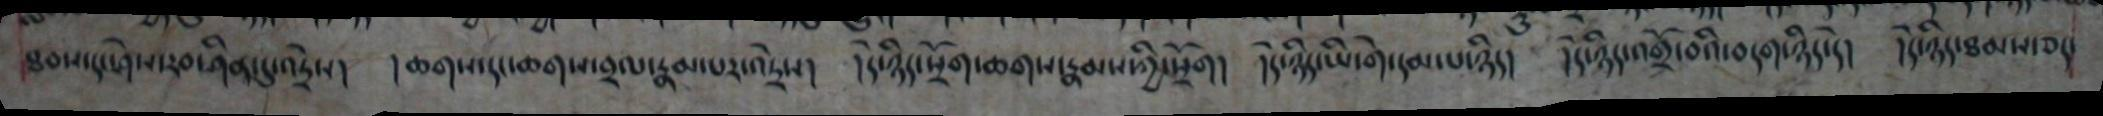ཐབས་དང་ཤེས་རབ་ཤིན་དུ་འདྲེས། །ཆགས་དང་ཆགས་བྲལ་རྣམ་པར་འདྲེས། །དེ་ཉིད་སྲོག་ཆགས་རྣམས་ཀྱི་སྲོག། །དེ་ཉིད་ཡི་གེ་དམ་པ་ཉིད། །དེ་ཉིད་འགྲོ་བའི་བདག་ཉིད་དེ། །དེ་ཉིད་ཐམས་ཅད་
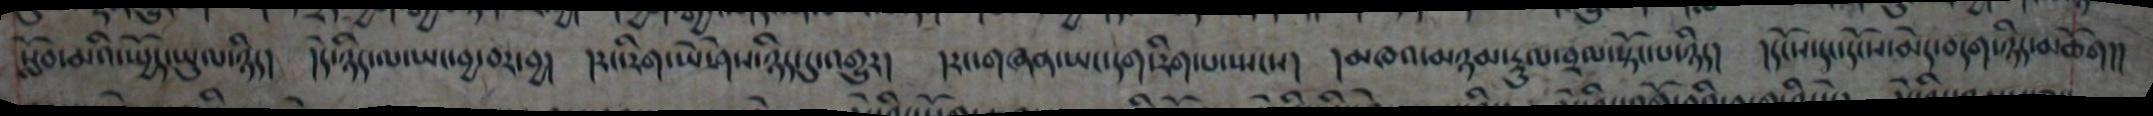སློབ་མའི་སྤྱོད་ཡུལ་ཉིད། །དེ་ཉིད་ལ་ཡང་བྱ་བར་བྱ། །རང་རིག་ཡེ་ཤེས་ཉིད་དུ་འགྱུར། །རང་གཞན་ཡང་དག་རིག་པ་སྤངས། །མཁའ་མཉམ་རྡུལ་བྲལ་སྟོང་པ་ཉིད། །དངོས་དང་དངོས་མེད་བདག་ཉིད་མཆོག།།
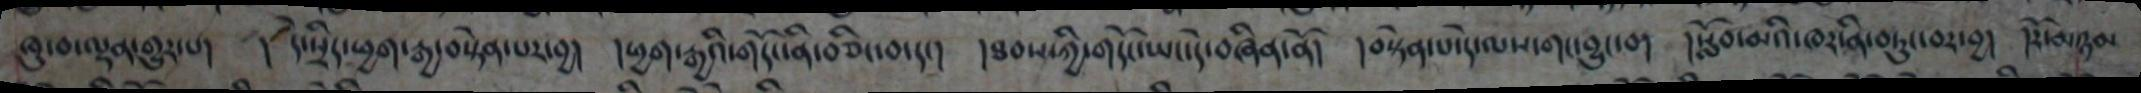ཁུ་བ་ལྡན་གྱུར་པ། །དེ་སྲིད་ཕྱག་རྒྱ་བསྟེན་པར་བྱ། །ཕྱག་རྒྱའི་གདོང་ནི་བཅིང་བ་དང། །ཐབས་ཀྱི་གདོང་ཡང་དེ་བཞིན་ནོ། །བསྟེན་པ་དེ་ལས་གང་བྱུང་བ། །སློབ་མའི་ཁར་ནི་བཏུང་བར་བྱ། །རོ་མཉམ
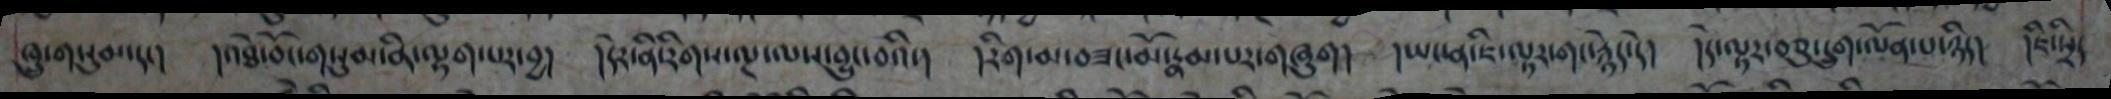ཁྲུ་གསུམ་དང། །འཐེ་བོང་གསུམ་ནི་ལྷག་པར་བྱ། །དེར་ནི་རིགས་ལྔ་ལས་བྱུང་བའི་། །རིག་མ་བཟང་མོ་རྣམ་པར་གཞུག། །ཡང་ན་ཇི་ལྟར་གང་རྙེད་དེ། །དེ་ལྟར་བཅུ་དྲུག་ལོན་པ་ཉིད། །ཇི་སྲིད
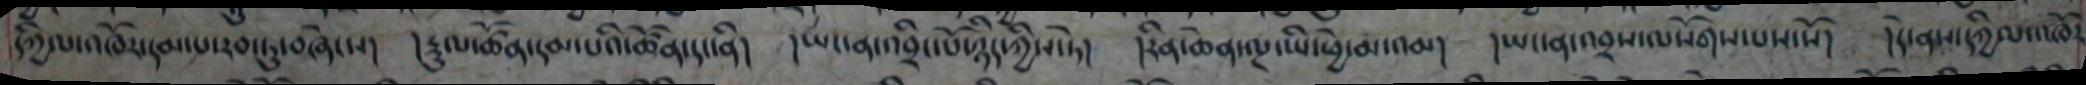དཀྱིལ་འཁོར་དམ་པ་རབ་ཏུ་བཞེངས། །རྡུལ་ཚོན་དམ་པའི་ཚོན་དང་ནི། །ཡང་ན་འབྲིང་པོ་ཉིད་ཀྱིས་ཏེ། །རིན་ཆེན་ལྔ་ཡི་ཕྱེ་མ་འམ། །ཡང་ན་འབྲས་ལསོགས་པས་སོ། །དེ་ནས་དཀྱིལ་འཁོར
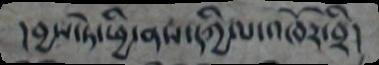།བྱས་ཏེ་ཕྱི་ནས་དཀྱིལ་འཁོར་བྲི།
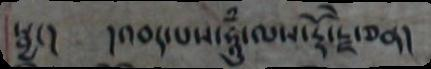སྦྱ། །འབད་པས་ཧཱུཾ་ལས་རྡོ་རྗེ་ཅན།
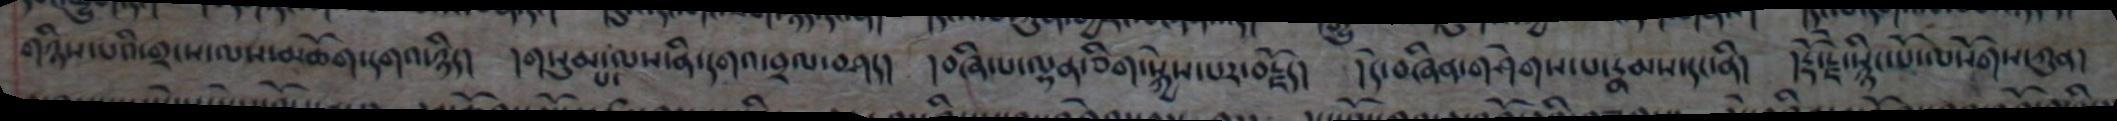གཉིས་པའི་གྲངས་ལས་མཆོག་དགའ་ཉིད།    །གསུམ་པ་ལས་ནི་དགའ་བྲལ་བཤད།   །བཞི་པ་ལྷན་ཅིག་སྐྱེས་པར་བརྗོད།    །དེ་བཞིན་གཤེགས་པ་རྣམས་དང་ནི།   ། རྡོ་རྗེ་སྙིད་པོ་ལསོགས་ཀུན་
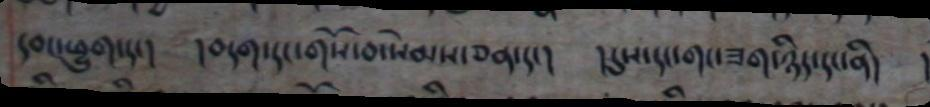དབང་ཕྱག་དང། །བདག་དང་གསོ་བ་སེམས་ཅན་དང། །དུས་དང་གང་ཟག་ཉིད་དང་ནི། །
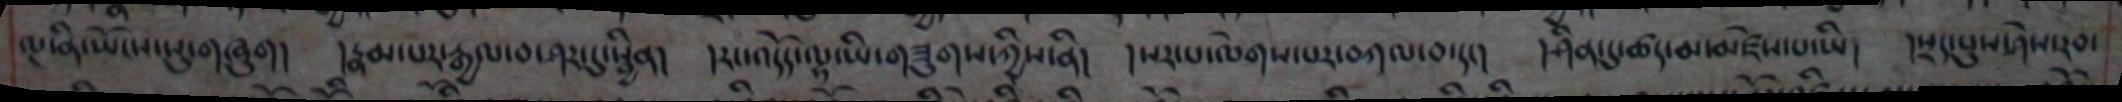ལྔ་ནི་ཡོངས་སུ་གཞུག། །རྣམ་པར་རྒྱལ་བ་ཤར་དུ་སྦྱིན། །རང་འདོད་ལྷ་ཡི་གཟུགས་ཀྱིས་ནི། །སར་པ་ལེགས་པར་བཀལ་བ་དང། །ཤིན་དུ་ཚད་མ་མཛེས་པ་ཡི། །སྲད་པུས་ཤེས་རབ་
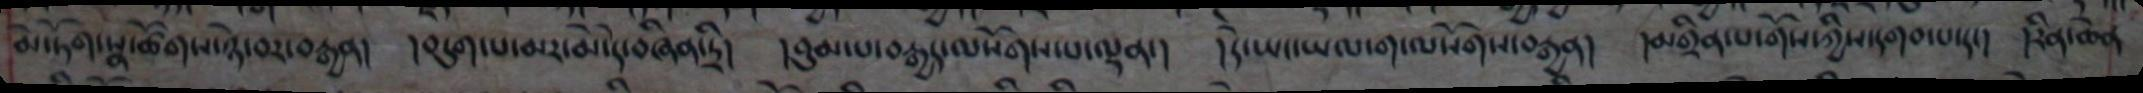མེ་ཏོག་སྣ་ཚོགས་ཉེ་བར་བརྒྱན། །བདུག་པ་མར་མེ་དེ་བཞིན་དྲི། །བུམ་པ་བརྒྱད་ལསོགས་པ་ལྡན་། །དེ་ཡང་ཡལ་ག་ལསོགས་བརྒྱན། །མགྲིན་པ་གོས་ཀྱིས་དགབ་པ་དང། །རིན་ཆེན
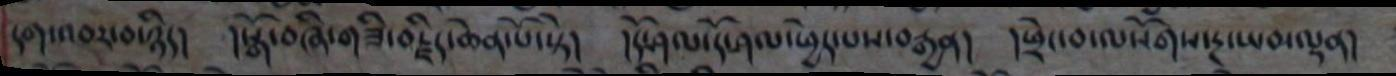དག་འབར་བ་ཉིད། །སྒོ་བཞི་གཟི་བརྗིད་ཆེན་པོ་སྟེ། །དོ་ཤལ་དོ་ཤལ་ཕྱེད་པས་བརྒྱན། །ཕྲེང་བ་ལསོགས་རྔ་ཡབ་ལྡན།
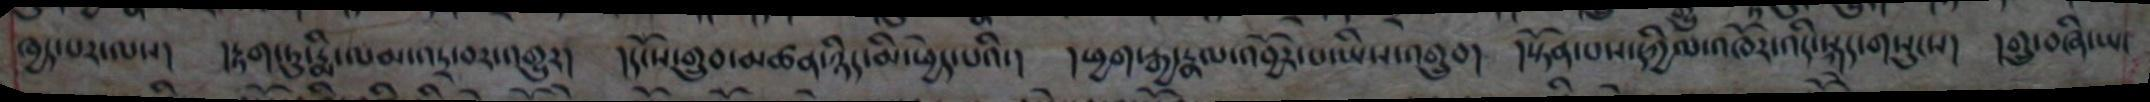ཁྱད་པར་ལས། །རྟག་ཏུ་རྨི་ལམ་འདྲ་བར་འགྱུར། །དངོས་གྲུབ་མཚན་ཉིད་མི་ཕྱེད་པའི་། །ཕྱག་རྒྱ་རྣལ་འབྱོར་པ་ཡིས་འགྲུབ། །སྟོན་པས་དཀྱིལ་འཁོར་འདི་སྐད་གསུངས། །གྲུ་བཞི་ཡང
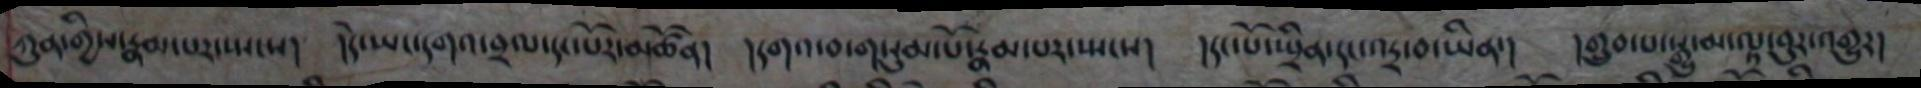ཀུན་གྱིས་རྣམ་པར་སྤངས། །དེ་ཡང་དགའ་བྲལ་དང་པོར་མཚོན། །དགའ་བ་གསུམ་པོ་རྣམ་པར་སྤངས། །དང་པོ་སྤྲིན་དང་འདྲ་བ་ཡིན། །གྲུབ་པ་སྒྱུ་མ་ལྟ་བུར་འགྱུར།
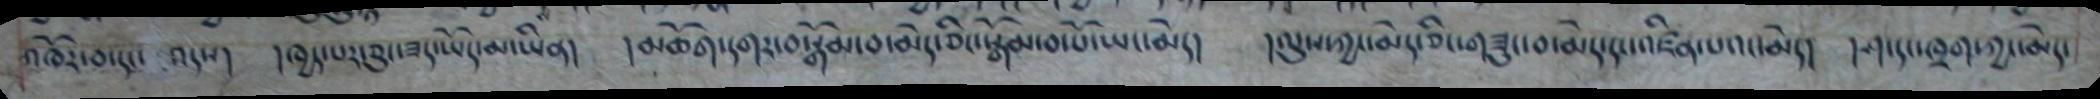།ཁོར་བ་དང་ འདས། །ཁྱད་པར་ཅུང་ཟད་ཡོད་མ་ཡིན། །མཆོག་དགར་བསྒོམ་བ་མེད་ཅིང་སྒོམ་བ་པོ་ཡང་མེད། །ལུས་ཀྱང་མེད་ཅིང་གཟུང་བ་མེད་དང་འཛིན་པའང་མེད། །ཤ་དང་ཁྲག་ཀྱང་མེད་
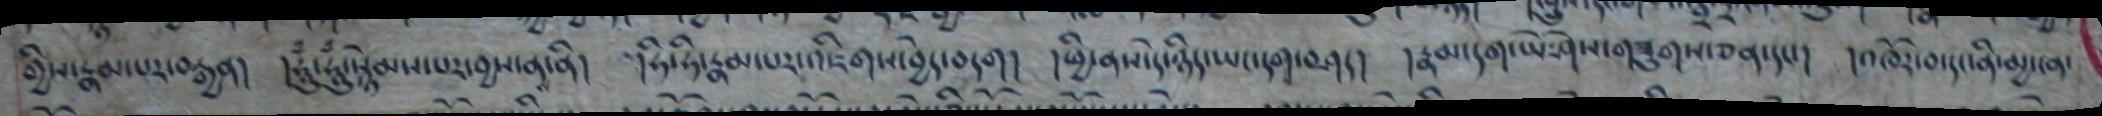གྱིས་རྣམ་པར་བརྒྱན། །ཧཱུཾ་ཧཱུཾ་སྙེམས་པར་བྱས་ན་ནི། །ཧི་ཧི་རྣམ་པར་འཇིགས་བྱེད་བདག། །ཕྱི་ནས་དེ་ཉིད་ཡང་དག་བཤད། །རྣམ་དག་ཡེ་ཤེས་གཟུགས་ཅན་དང་། །འཁོར་བ་དང་ནི་མྱ་ངན་
